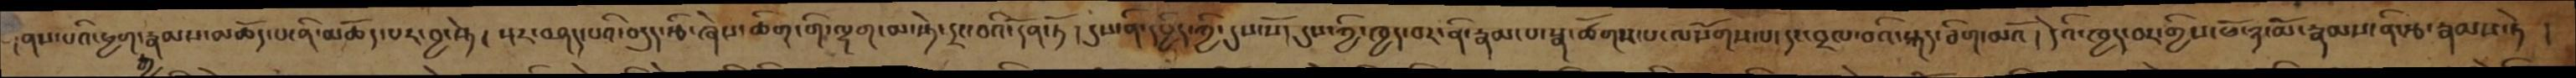གནས་པའི་ཕྱག་རྒྱ་རྣམས་མཆོད་པ་ནི་མཆོད་པར་བྱ་སྟེ།  སྔར་བཤད་པའི་བདུད་རྩི་ཞེས་ཚིག་གི་ལྷག་མ་སྟེ་དྲང་བའི་དོན་ཏོ། དུས་ནི་དཔྱིད་ཀྱི་དུས་སོ། དུས་ཀྱི་ཁྱད་པར་ནི་རྣམ་པ་སྣ་ཚོགས་པ་ལསོགས་པ་དང་བྲལ་བའི་སྐད་ཅིག་མའོ། དེའི་ཁྱད་བར་གྱིས་ཕོ་ཉ་མོ་རྣམས་ནི་རྩ་རྣམས་ཏེ།
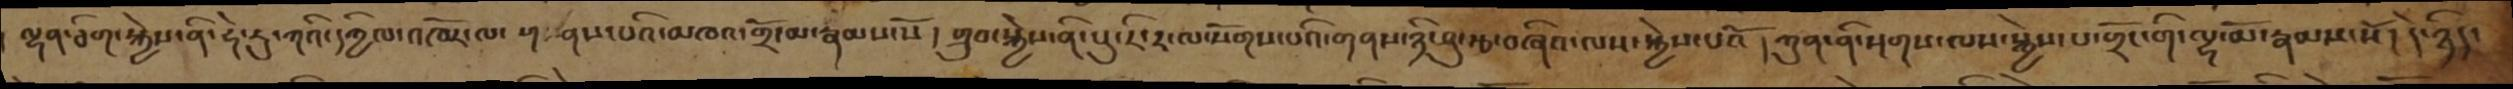ལྷན་ཅིག་སྐྱེས་ནི་ཧེ་རུ་ཀའི་དཀྱིལ་འཁོར་ལ་ ག ནས་པའི་མཁའ་གྲོ་མ་རྣམས་སོ །གྲུབ་སྐྱེས་ནི་པུ་རི་ར་ལ་སོགས་པའི་གནས་ཉི་ཤུརྩ་བཞིའ་ལས་སྐྱེས་པའོ །ཀུན་ནི་སྔགས་ལས་སྐྱེས་པ་གྲོང་གི་ལྷ་མོ་རྣམས་སོ །དེ་ཉིད་
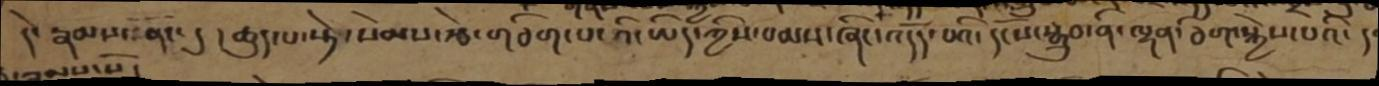དེ་རྣམས་ནང་དུ། ཚུད་པ་སྟེ་སེམས་རྩེ་གཅིག་པ་འི་ཡིད་ཀྱིས་བམས་ཞིང་འདོད་པའི་དངོས་སྒྲུབ་ནི་ལྷན་ཅིག་སྐྱེས་པའི་ད་
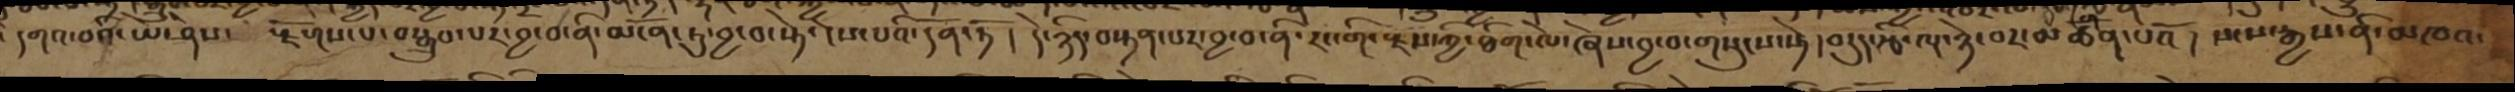དགའ་བའི་ཡེ་ཤེས་ རྫོགས་པ་བསྒྲུབ་པར་བྱ་བ་ནི་མངོན་ཏུ་བྱ་བ་་སྟེ་ངེས་པའི་དོན་ཏོ། དེ་ཉིད་བསྟན་པར་བྱ་བ་ནི་རང་གི་རྫས་ཀྱི་ཐིག་ལེ་ཞེས་བྱ་བ་གསུངས་སྟེ། བདུད་རྩི་ལྔ་ཉེ་བར་མཚོན་པའོ། སངས་རྒྱས་ནི་མཁའ་
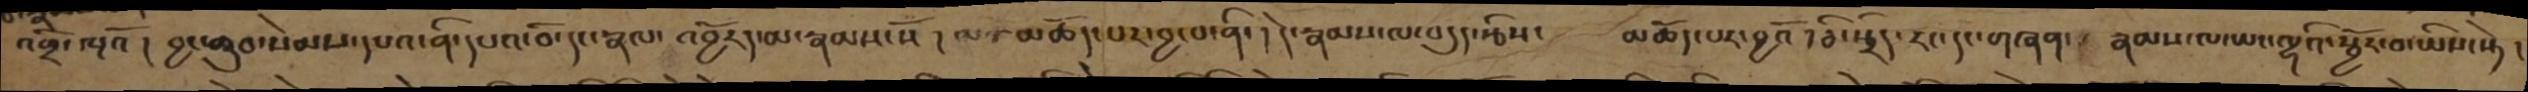འགྲོ་ལྔའོ། བྱང་ཆུབ་སེམས་དཔའ་ནི་དཔའ་བོ་དང་རྣལ་འབྱོརད་མ་རྣམས་སོ། ལ་མཆོད་པར་བྱ་བ་ནི་། དེ་རྣམས་ལ་བདུད་རྩིས་   མཆོད་པར་བྱའོ་ཅི་སྲིད་རང་དང་གཞན་རྣམས་ལ་ཡང་ལྷའི་སྦྱོར་བ་ཡིས་སྟེ།
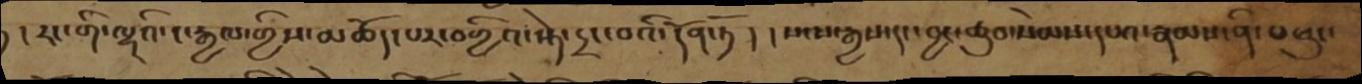། །རང་གི་ལྷའི་ང་རྒྱལ་གྱིས་མཆོད་པར་བགྱིའ་སྟེ་དྲང་བའི་དོན་ཏོ ། སངས་རྒྱས་དང་བྱང་ཆུབ་སེམས་དཔའ་རྣམས་ནི་པཕུང་
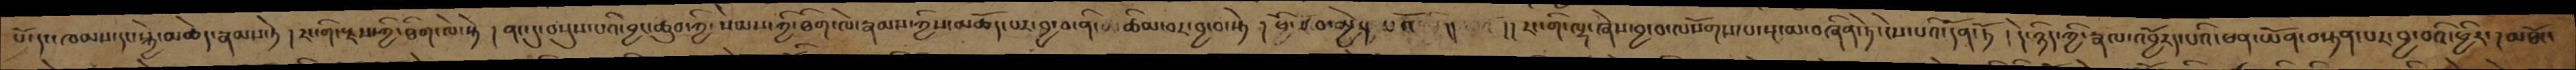པོ་དང་ཁམས་དང་སྐྱེ་མཆེད་རྣམས་ཏེ །རང་གི་རྫས་ཀྱི་ཐིག་ལེ་སྟེ །ནང་དུ་བསྡུས་པའི་བྱང་ཆུབ་ཀྱི་སེམས་ཀྱི་ཐིག་ལེ་རྣམས་ཀྱིས་མཆོད་པར་བྱ་བ་ནི་ ཚིམ་བར་བྱ་བ་སྟེ། ཕྱོ་ཙ བ་མྱེད་པའོ།།  །།རང་གི་ལྷ་ཞེས་བྱ་བ་ལསོགས་པ་སྔ་མ་བཞིན་ཏེ་ངེས་པའི་དོན་ཏོ །དེ་ཉིད་ཀྱི་རྣལ་འབྱོརད་པའི་ཕན་ཡོན་བསྟན་པར་བྱ་བའི་ཕྱིར་།མཐོང་
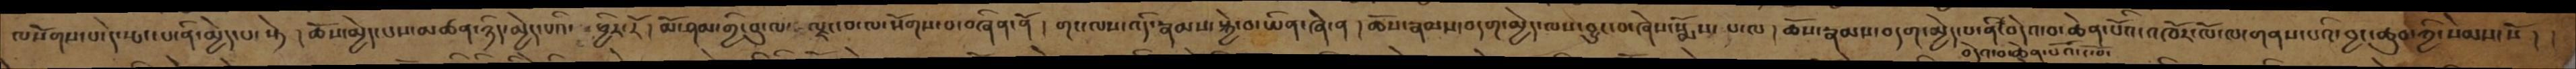ལསོགས་པ་དེ་སྤང་པ་ནི་མྱེད་པ་སྟེ། ཆོས་མྱེད་པས་མཚན་ཉིད་མྱེད་པའི་ཕྱིར་རོ། མོ་ཤམ་གྱི་བུ་ལ་ལྗང་བ་ལ་སོགས་པ་བཞིན་ནོ། གང་ལས་འདི་རྣམས་སྐྱེ་བ་ཡིན་ཞེ་ན། ཆོས་རྣམས་བདག་མྱེད་ལས་བྱུང་བ་ཞེས་སྨོས་པ་ལ། ཆོས་རྣམས་བདག་མྱེད་པ་ནི་བདེའ་བ་ཆེན་པོའི་འཁོར་ལོ་ལ་གནས་པའི་བྱང་ཆུབ་ཀྱི་སེམས་སོ།
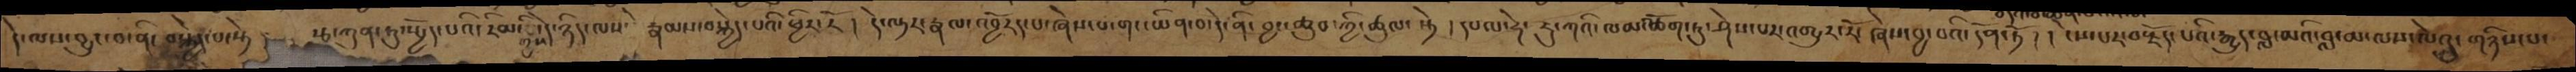དེ་ལས་བྱུང་བ་ནི་བསྐྱེད་པ་སྟེ།  རྩ་ཀུན་ཏུ་སྤྱོད་པའི་རིམ་གྱིས་དེ་ཉིད་ལས་དེ་ རྣམས་བསྐྱེད་པའི་ཕྱིར་རོ། དེ་ལྟར་རྣལ་འབྱོརད་པ་ཞེས་པ་གང་ཡིན་པ་དེ་ནི་བྱང་ཆུབ་ཀྱི་ཚུལ་སྟེ། དཔལ་ཧེ་རུ་ཀའི་ལམ་མཆོག་ཏུ་ཤེས་པར་འགྱུར་རོ། ཞེས་བྱ་བའི་དོན་ཏོ། ངེས་པར་བརྗོད་པའི་རྒྱུད་བླ་མའི་བླ་མ་ལས་ལེའུ་གཉིས་པ་
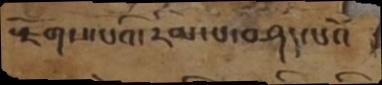སྫོགས་པའི་རིམ་པ་བཤད་པའོ །
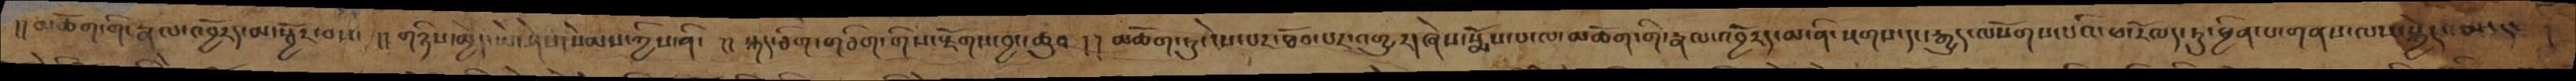།།མཆོག་གི་རྣལ་འབྱོརད་མ་སྦྱོར་བས།།གཉིས་མྱེད་ཡེ་ཤེས་སེམས་ཀྱིས་ནི་ །། སྐད་ཅིག་གཅིག་གིས་སྫོགས་བྱང་ཆུབ །།མཆོག་ཏུ་ངེས་པར་ཐོབ་པར་འགྱུར། ཞེས་སྨོས་པ་ལ་མཆོག་གི་རྣལ་འབྱོརད་མ་ནི་སྔགས་དང་རྒྱུད་ལསོགས་པའི་ཕ་རོལད་ཏུ་ཕྱིན་པ་གནས་ལས་སྐྱེད་མ་དང་ །
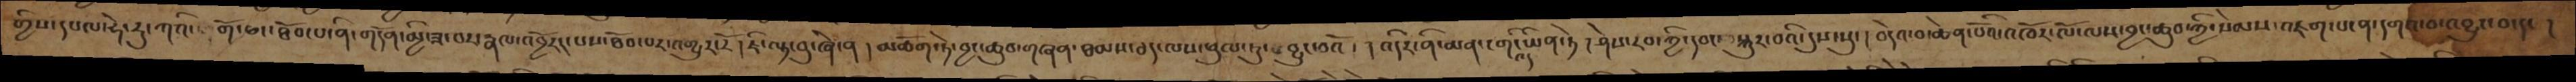གྱིས་དཔལ་ཧེ་རུ་ཀའི་གོ་ཕང་ཐོབ་པ་ནི་གདོན་མྱི་ཟ་བར་རྣལ་འབྱོརད་པས་ཐོབ་པར་འགྱུར་རོ། ཇི་ལྟ་བུ་ཞེ་ན། མཆོག་ཏེ་བྱང་ཆུབ་གཞན་ཐམས་ཅད་ལས་ཕུལ་ཏུ་བྱུང་བའོ། འདིར་ནི་མན་ངག་འདི་ཡིན་ཏེ། ཤེས་རབ་ཀྱི་དབང་བསྐུར་བའི་དུས་སུ། བདེའ་བ་ཆེན་པོའི་འཁོར་ལོ་ལས་བྱང་ཆུབ་ཀྱི་སེམས་འཇག་པ་ན་དགའ་བ་འབྱུང་བ་དང།
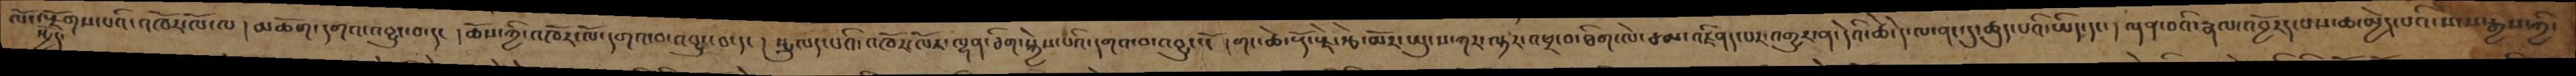ལོང་སྤྱོད་རྫོགས་པའི་འཁོར་ལོ་ལ། མཆོག་དགའ་འབྱུང་བ་དང། ཆོས་ཀྱི་འཁོར་ལོ་དགའ་བ་འབྱུང་བ་དང། སྤྲུལད་པའི་འཁོར་ལོར་ལྷན་ཅིག་སྐྱེས་པའི་དགའ་བ་འབྱུང་ངོ། གང་ཆེ་རྡོ་རྗེ་རྩེ་མོར་ཡུངས་ཀར་འཕྲ་བ་ཐིག་ལེ་ཙམ་འཛིནད་པར་འགྱུར་ན་དེའི་ཚེ་དེ་ལ་ནང་དུ་ཚུད་པའི་ཡིད་དང། ལྡན་པའི་རྣལ་འབྱོརད་པས་ཆ་མྱེད་པའི་སངས་རྒྱས་ཀྱི་
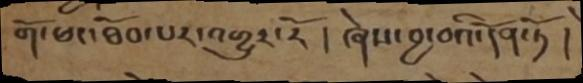གོ་ཕང་ཐོབ་པར་འགྱུར་རོ ། ཞེས་བྱ་བའི་དོན་ཏོ །
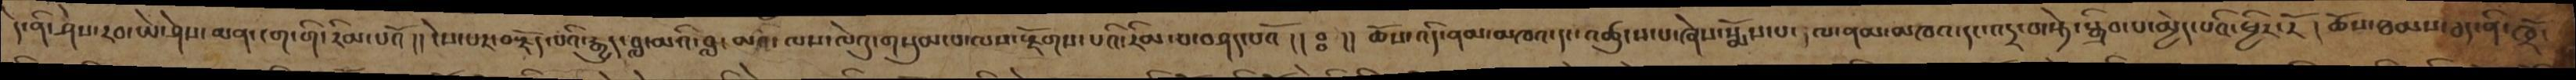དེ་ནི་ཤེས་རབ་ཡེ་ཤེས་མན་ངག་གི་རིམ་པའོ །། ངེས་པར་བརྗོད་པའི་རྒྱུད་བླ་མའི་བླ་མའ་ལས་ལེའུ་གསུམ་པ་ལས་སྫོགས་པའི་རིམ་པ་བཤད་པའོ །། ཿ  །། ཆོས་འདི་ནམ་མཁའ་དང་འཚུངས་པ་ཞེས་སྨོས་པ་ལ་ནམ་མཁའ་དང་འདྲ་བ་སྟེ་སྒྲིབ་པ་མྱེད་པའི་ཕྱིར་རོ །ཆོས་ཐམས་ཅད་ནི་ཁྲོ་
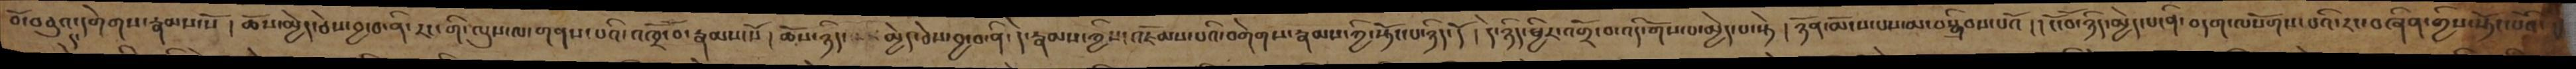བོ་བཅུའ་དང་དགེགས་་རྣམས་སོ། ཆོས་མྱེད་ཅེས་བྱ་བ་ནི་རང་གི་ལུས་ལ་གནས་པའི་འཁྲོ་བོ་རྣམས་སོ། ཆོས་ཉིད་ མྱེད་ཅེས་བྱ་བ་ནི དེ་རྣམས་ཀྱིས་འཇོམས་པའི་བགེགས་རྣམས་ཀྱི་སྟོང་པ་ཉིད་དོ། དེ་ཉིད་ཕྱིར་འགྲོ་བ་འདི་གོས་པ་མྱེད་པ་སྟེ། ཉོན་མོངས་པས་མ་བསྒྲིབས་པའོ། །ངོ་བོ་ཉིད་མྱེད་པ་ནི བདག་ལསོགས་པའི་རང་བཞིན་གྱིས་སྟོང་པའོ།
